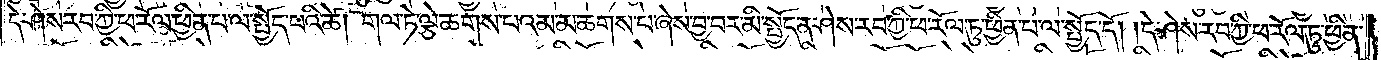དེ་ཤེས་རབ་ཀྱི་ཕ་རོལ་ཏུ་ཕྱིན་པ་ལ་སྤྱོད་པའི་ཚེ། གལ་ཏེ་ལྕེ་ཆགས་པའམ་མ་ཆགས་པ་ཞེས་བྱ་བར་མི་སྤྱོད་ན་ཤེས་རབ་ཀྱི་ཕ་རོལ་ཏུ་ཕྱིན་པ་ལ་སྤྱོད་དོ། །དེ་ཤེས་རབ་ཀྱི་ཕ་རོལ་ཏུ་ཕྱིན་
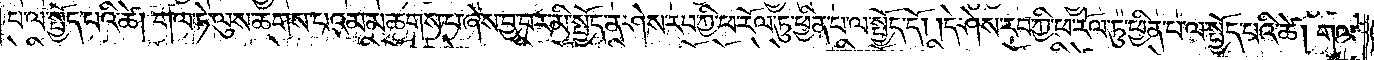པ་ལ་སྤྱོད་པའི་ཚེ། གལ་ཏེ་ལུས་ཆགས་པའམ་མ་ཆགས་པ་ཞེས་བྱ་བར་མི་སྤྱོད་ན་ཤེས་རབ་ཀྱི་ཕ་རོལ་ཏུ་ཕྱིན་པ་ལ་སྤྱོད་དོ། །དེ་ཤེས་རབ་ཀྱི་ཕ་རོལ་ཏུ་ཕྱིན་པ་ལ་སྤྱོད་པའི་ཚེ། གལ་
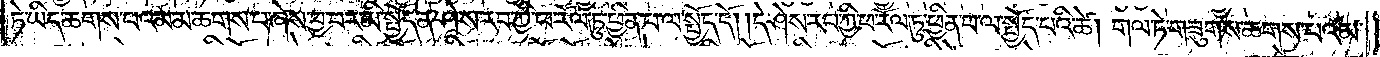ཏེ་ཡིད་ཆགས་པའམ་མ་ཆགས་པ་ཞེས་བྱ་བར་མི་སྤྱོད་ན་ཤེས་རབ་ཀྱི་ཕ་རོལ་ཏུ་ཕྱིན་པ་ལ་སྤྱོད་དོ། །དེ་ཤེས་རབ་ཀྱི་ཕ་རོལ་ཏུ་ཕྱིན་པ་ལ་སྤྱོད་པའི་ཚེ། གལ་ཏེ་གཟུགས་ཆགས་པའམ་
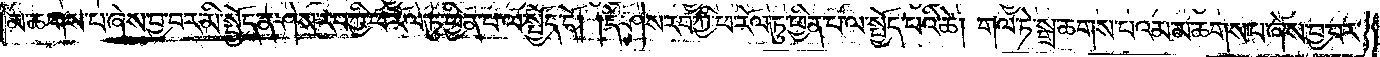མ་ཆགས་པ་ཞེས་བྱ་བར་མི་སྤྱོད་ན་ཤེས་རབ་ཀྱི་ཕ་རོལ་ཏུ་ཕྱིན་པ་ལ་སྤྱོད་དོ། །དེ་ཤེས་རབ་ཀྱི་ཕ་རོལ་ཏུ་ཕྱིན་པ་ལ་སྤྱོད་པའི་ཚེ། གལ་ཏེ་སྒྲ་ཆགས་པའམ་མ་ཆགས་པ་ཞེས་བྱ་བར་
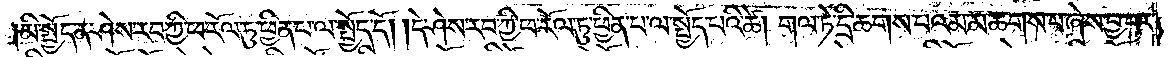མི་སྤྱོད་ན་ཤེས་རབ་ཀྱི་ཕ་རོལ་ཏུ་ཕྱིན་པ་ལ་སྤྱོད་དོ། །དེ་ཤེས་རབ་ཀྱི་ཕ་རོལ་ཏུ་ཕྱིན་པ་ལ་སྤྱོད་པའི་ཚེ། གལ་ཏེ་དྲི་ཆགས་པའམ་མ་ཆགས་པ་ཞེས་བྱ་བར་
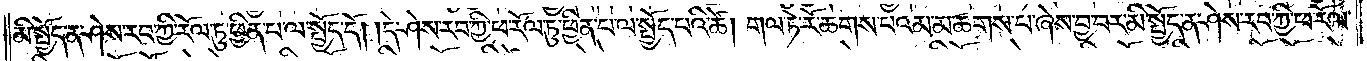མི་སྤྱོད་ན་ཤེས་རབ་ཀྱི་ཕ་རོལ་ཏུ་ཕྱིན་པ་ལ་སྤྱོད་དོ། །དེ་ཤེས་རབ་ཀྱི་ཕ་རོལ་ཏུ་ཕྱིན་པ་ལ་སྤྱོད་པའི་ཚེ། གལ་ཏེ་རོ་ཆགས་པའམ་མ་ཆགས་པ་ཞེས་བྱ་བར་མི་སྤྱོད་ན་ཤེས་རབ་ཀྱི་ཕ་རོལ་
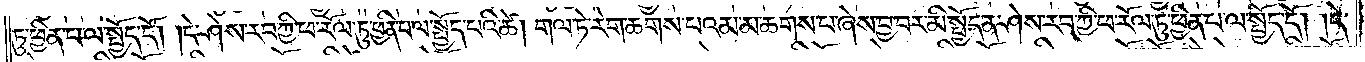ཏུ་ཕྱིན་པ་ལ་སྤྱོད་དོ། །དེ་ཤེས་རབ་ཀྱི་ཕ་རོལ་ཏུ་ཕྱིན་པ་ལ་སྤྱོད་པའི་ཚེ། གལ་ཏེ་རེག་ཆགས་པའམ་མ་ཆགས་པ་ཞེས་བྱ་བར་མི་སྤྱོད་ན་ཤེས་རབ་ཀྱི་ཕ་རོལ་ཏུ་ཕྱིན་པ་ལ་སྤྱོད་དོ། །དེ་
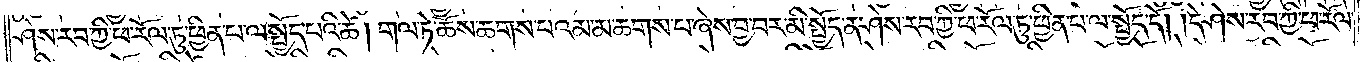ཤེས་རབ་ཀྱི་ཕ་རོལ་ཏུ་ཕྱིན་པ་ལ་སྤྱོད་པའི་ཚེ། གལ་ཏེ་ཆོས་ཆགས་པའམ་མ་ཆགས་པ་ཞེས་བྱ་བར་མི་སྤྱོད་ན་ཤེས་རབ་ཀྱི་ཕ་རོལ་ཏུ་ཕྱིན་པ་ལ་སྤྱོད་དོ། །དེ་ཤེས་རབ་ཀྱི་ཕ་རོལ་
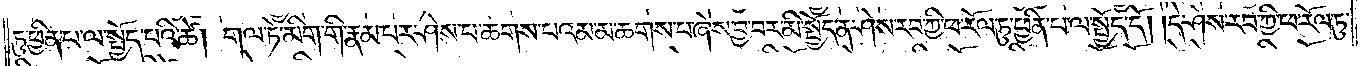ཏུ་ཕྱིན་པ་ལ་སྤྱོད་པའི་ཚེ། གལ་ཏེ་མིག་གི་རྣམ་པར་ཤེས་པ་ཆགས་པའམ་མ་ཆགས་པ་ཞེས་བྱ་བར་མི་སྤྱོད་ན་ཤེས་རབ་ཀྱི་ཕ་རོལ་ཏུ་ཕྱིན་པ་ལ་སྤྱོད་དོ། །དེ་ཤེས་རབ་ཀྱི་ཕ་རོལ་ཏུ་
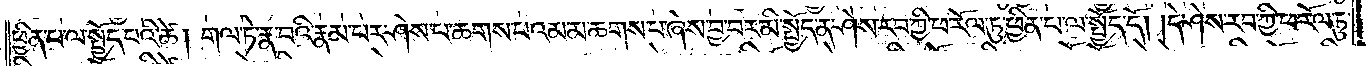ཕྱིན་པ་ལ་སྤྱོད་པའི་ཚེ། གལ་ཏེ་རྣ་བའི་རྣམ་པར་ཤེས་པ་ཆགས་པའམ་མ་ཆགས་པ་ཞེས་བྱ་བར་མི་སྤྱོད་ན་ཤེས་རབ་ཀྱི་ཕ་རོལ་ཏུ་ཕྱིན་པ་ལ་སྤྱོད་དོ། །དེ་ཤེས་རབ་ཀྱི་ཕ་རོལ་ཏུ་
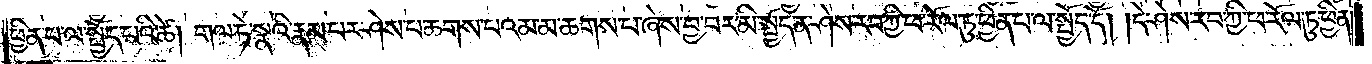ཕྱིན་པ་ལ་སྤྱོད་པའི་ཚེ། གལ་ཏེ་སྣའི་རྣམ་པར་ཤེས་པ་ཆགས་པའམ་མ་ཆགས་པ་ཞེས་བྱ་བར་མི་སྤྱོད་ན་ཤེས་རབ་ཀྱི་ཕ་རོལ་ཏུ་ཕྱིན་པ་ལ་སྤྱོད་དོ། །དེ་ཤེས་རབ་ཀྱི་ཕ་རོལ་ཏུ་ཕྱིན་
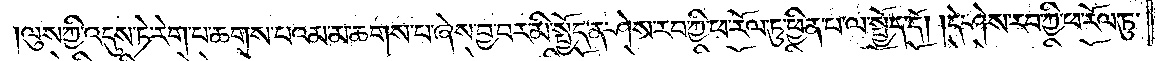ལུས་ཀྱི་འདུས་ཏེ་རེག་པ་ཆགས་པའམ་མ་ཆགས་པ་ཞེས་བྱ་བར་མི་སྤྱོད་ན་ཤེས་རབ་ཀྱི་ཕ་རོལ་ཏུ་ཕྱིན་པ་ལ་སྤྱོད་དོ། །དེ་ཤེས་རབ་ཀྱི་ཕ་རོལ་ཏུ་
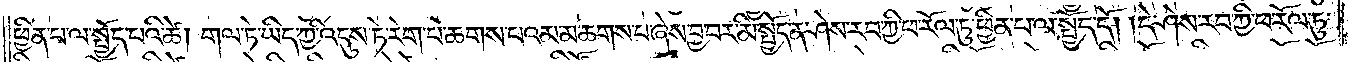ཕྱིན་པ་ལ་སྤྱོད་པའི་ཚེ། གལ་ཏེ་ཡིད་ཀྱི་འདུས་ཏེ་རེག་པ་ཆགས་པའམ་མ་ཆགས་པ་ཞེས་བྱ་བར་མི་སྤྱོད་ན་ཤེས་རབ་ཀྱི་ཕ་རོལ་ཏུ་ཕྱིན་པ་ལ་སྤྱོད་དོ། །དེ་ཤེས་རབ་ཀྱི་ཕ་རོལ་ཏུ་
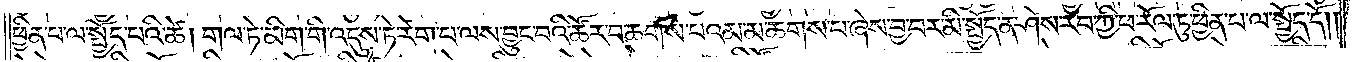ཕྱིན་པ་ལ་སྤྱོད་པའི་ཚེ། གལ་ཏེ་མིག་གི་འདུས་ཏེ་རེག་པ་ལས་བྱུང་བའི་ཚོར་བ་ཆགས་པའམ་མ་ཆགས་པ་ཞེས་བྱ་བར་མི་སྤྱོད་ན་ཤེས་རབ་ཀྱི་ཕ་རོལ་ཏུ་ཕྱིན་པ་ལ་སྤྱོད་དོ། །
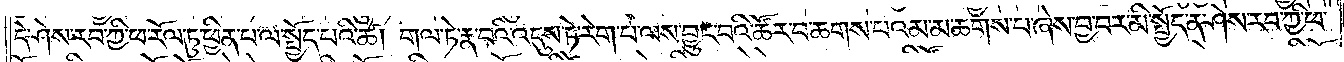དེ་ཤེས་རབ་ཀྱི་ཕ་རོལ་ཏུ་ཕྱིན་པ་ལ་སྤྱོད་པའི་ཚེ། གལ་ཏེ་རྣ་བའི་འདུས་ཏེ་རེག་པ་ལས་བྱུང་བའི་ཚོར་བ་ཆགས་པའམ་མ་ཆགས་པ་ཞེས་བྱ་བར་མི་སྤྱོད་ན་ཤེས་རབ་ཀྱི་ཕ་
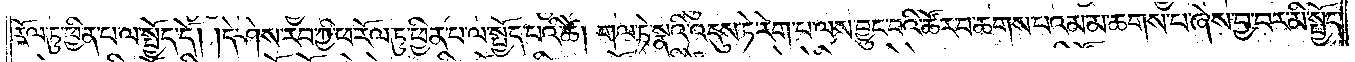རོལ་ཏུ་ཕྱིན་པ་ལ་སྤྱོད་དོ། །དེ་ཤེས་རབ་ཀྱི་ཕ་རོལ་ཏུ་ཕྱིན་པ་ལ་སྤྱོད་པའི་ཚེ། གལ་ཏེ་སྣའི་འདུས་ཏེ་རེག་པ་ལས་བྱུང་བའི་ཚོར་བ་ཆགས་པའམ་མ་ཆགས་པ་ཞེས་བྱ་བར་མི་སྤྱོད་
